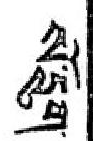སོ་དྲུག་
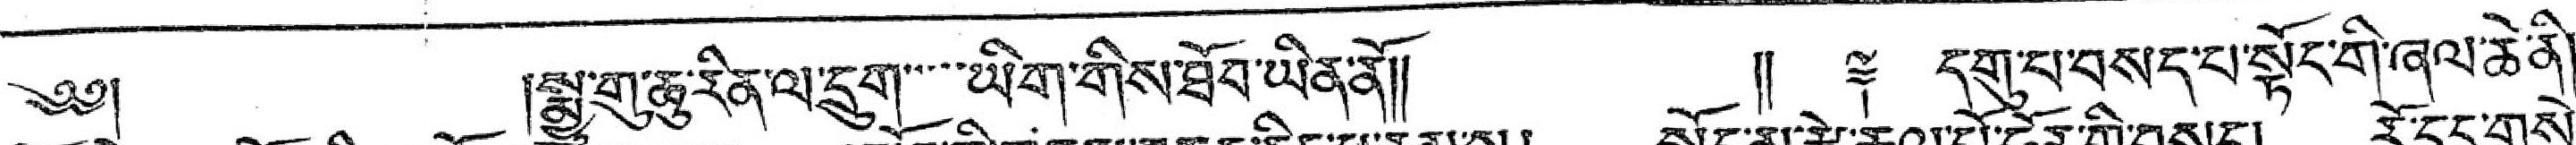༄༅།  སྨྱུ་གུ་ཆུ་རིན་ལ་དྲུག་་་་་ཡིག་གིས་ཐོབ་ཡིན་ནོ།།  །། ༈ དགུ་པ་བསད་པ་སྟོང་གི་ཞལ་ཆེ་ནི།
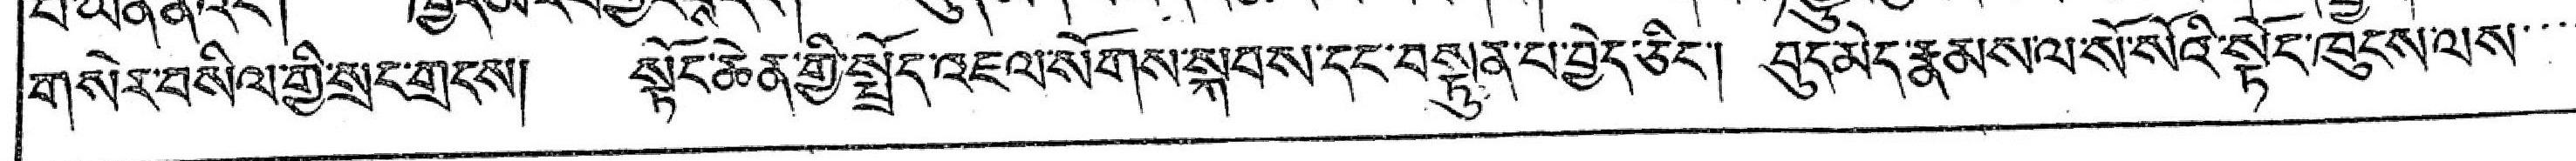གསེར་བསིལ་གྱི་སྲང་གྲངས། སྟོང་ཆེན་གྱི་སྤྲོད་འཇལ་སོགས་སྐབས་དང་བསྟུན་པ་བྱེད་ཅིང་། བུད་མེད་རྣམས་ལ་སོ་སོའི་སྟོང་ཁུངས་ལས་་་་
